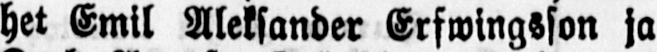het Emil Aleksander Erfwingsson ja
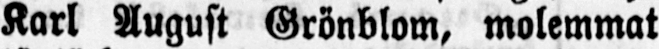Karl August Grönblom, molemmat
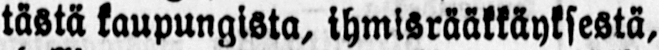tästä kaupungista, ihmisrääkkäyksestä,
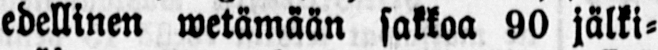edellinen wetämään sakkoa 90 jälki-
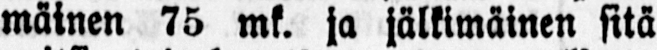mäinen 75 mk. ja jälkimäinen sitä
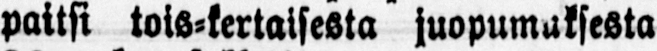paitsi tois-kertaiseata juopumuksesta
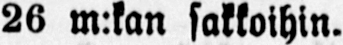26 m:kan sakkoihin.
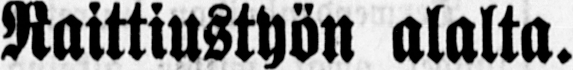Raittiustyön alalta.
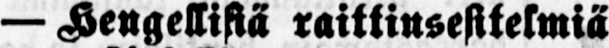— Hengellisiä raittiusesitelmiä
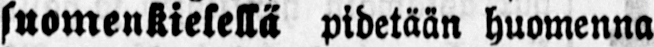suomenkielellä pidetään huomenna
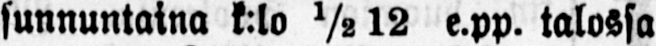sunnuntaina k:lo ½ 12 e.pp. talossa
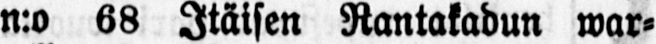n:o 68 Itäisen Rantakadun war-
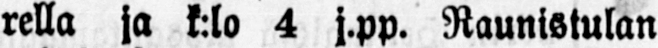rella ja k:lo 4 j.pp. Raunistulan
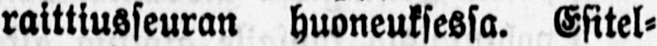raittiusseuran huoneuksessa. Esitel-
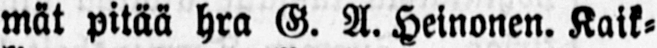mät pitää hra G. A. Heinonen. Kaik-
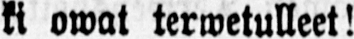ki owat terwetulleet!
